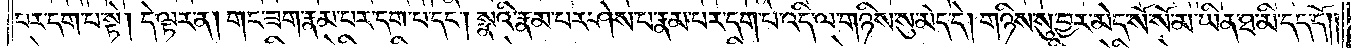པར་དག་པ་སྟེ། དེ་ལྟར་ན། གང་ཟག་རྣམ་པར་དག་པ་དང༌། སྣའི་རྣམ་པར་ཤེས་པ་རྣམ་པར་དག་པ་འདི་ལ་གཉིས་སུ་མེད་དེ། གཉིས་སུ་བྱར་མེད་སོ་སོ་མ་ཡིན་ཐ་མི་དད་དོ༎
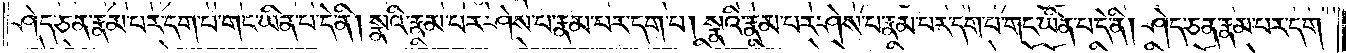ཤེད་ཅན་རྣམ་པར་དག་པ་གང་ཡིན་པ་དེ་ནི། སྣའི་རྣམ་པར་ཤེས་པ་རྣམ་པར་དག་པ། སྣའི་རྣམ་པར་ཤེས་པ་རྣམ་པར་དག་པ་གང་ཡིན་པ་དེ་ནི། ཤེད་ཅན་རྣམ་པར་དག་
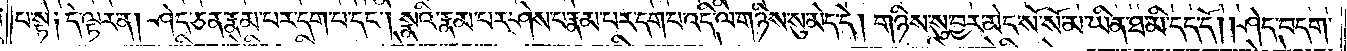པ་སྟེ༑ དེ་ལྟར་ན། ཤེད་ཅན་རྣམ་པར་དག་པ་དང༌། སྣའི་རྣམ་པར་ཤེས་པ་རྣམ་པར་དག་པ་འདི་ལ་གཉིས་སུ་མེད་དེ། གཉིས་སུ་བྱར་མེད་སོ་སོ་མ་ཡིན་ཐ་མི་དད་དོ། །ཤེད་བདག་
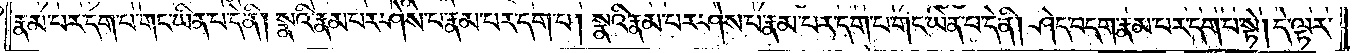རྣམ་པར་དག་པ་གང་ཡིན་པ་དེ་ནི། སྣའི་རྣམ་པར་ཤེས་པ་རྣམ་པར་དག་པ། སྣའི་རྣམ་པར་ཤེས་པ་རྣམ་པར་དག་པ་གང་ཡིན་པ་དེ་ནི། ཤེད་བདག་རྣམ་པར་དག་པ་སྟེ། དེ་ལྟར་
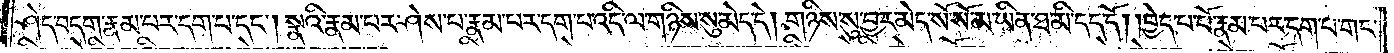ཤེད་བདག་རྣམ་པར་དག་པ་དང༌། སྣའི་རྣམ་པར་ཤེས་པ་རྣམ་པར་དག་པ་འདི་ལ་གཉིས་སུ་མེད་དེ། གཉིས་སུ་བྱར་མེད་སོ་སོ་མ་ཡིན་ཐ་མི་དད་དོ། །བྱེད་པ་པོ་རྣམ་པར་དག་པ་གང་
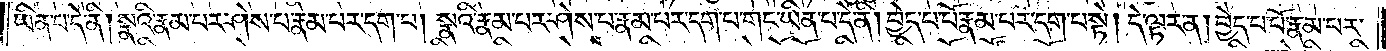ཡིན་པ་དེ་ནི། སྣའི་རྣམ་པར་ཤེས་པ་རྣམ་པར་དག་པ། སྣའི་རྣམ་པར་ཤེས་པ་རྣམ་པར་དག་པ་གང་ཡིན་པ་དེ་ནི། བྱེད་པ་པོ་རྣམ་པར་དག་པ་སྟེ། དེ་ལྟར་ན། བྱེད་པ་པོ་རྣམ་པར་
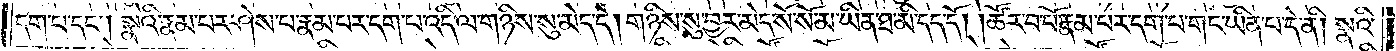དག་པ་དང༌། སྣའི་རྣམ་པར་ཤེས་པ་རྣམ་པར་དག་པ་འདི་ལ་གཉིས་སུ་མེད་དེ། གཉིས་སུ་བྱར་མེད་སོ་སོ་མ་ཡིན་ཐ་མི་དད་དོ། །ཚོར་བ་པོ་རྣམ་པར་དག་པ་གང་ཡིན་པ་དེ་ནི། སྣའི་
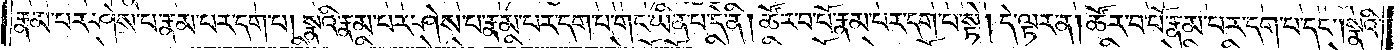རྣམ་པར་ཤེས་པ་རྣམ་པར་དག་པ། སྣའི་རྣམ་པར་ཤེས་པ་རྣམ་པར་དག་པ་གང་ཡིན་པ་དེ་ནི། ཚོར་བ་པོ་རྣམ་པར་དག་པ་སྟེ། དེ་ལྟར་ན། ཚོར་བ་པོ་རྣམ་པར་དག་པ་དང༌། སྣའི་
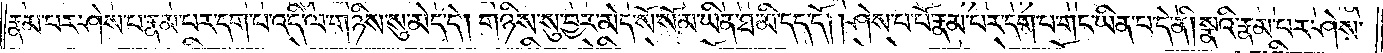རྣམ་པར་ཤེས་པ་རྣམ་པར་དག་པ་འདི་ལ་གཉིས་སུ་མེད་དེ། གཉིས་སུ་བྱར་མེད་སོ་སོ་མ་ཡིན་ཐ་མི་དད་དོ། །ཤེས་པ་པོ་རྣམ་པར་དག་པ་གང་ཡིན་པ་དེ་ནི། སྣའི་རྣམ་པར་ཤེས་
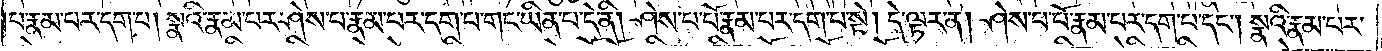པ་རྣམ་པར་དག་པ། སྣའི་རྣམ་པར་ཤེས་པ་རྣམ་པར་དག་པ་གང་ཡིན་པ་དེ་ནི། ཤེས་པ་པོ་རྣམ་པར་དག་པ་སྟེ། དེ་ལྟར་ན། ཤེས་པ་པོ་རྣམ་པར་དག་པ་དང༌། སྣའི་རྣམ་པར་
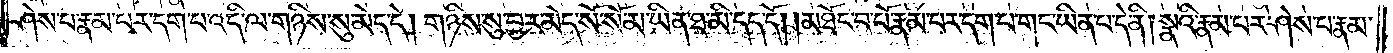ཤེས་པ་རྣམ་པར་དག་པ་འདི་ལ་གཉིས་སུ་མེད་དེ། གཉིས་སུ་བྱར་མེད་སོ་སོ་མ་ཡིན་ཐ་མི་དད་དོ། །མཐོང་བ་པོ་རྣམ་པར་དག་པ་གང་ཡིན་པ་དེ་ནི། སྣའི་རྣམ་པར་ཤེས་པ་རྣམ་
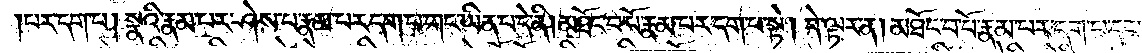པར་དག་པ། སྣའི་རྣམ་པར་ཤེས་པ་རྣམ་པར་དག་པ་གང་ཡིན་པ་དེ་ནི། མཐོང་བ་པོ་རྣམ་པར་དག་པ་སྟེ། དེ་ལྟར་ན། མཐོང་བ་པོ་རྣམ་པར་དག་པ་དང༌།
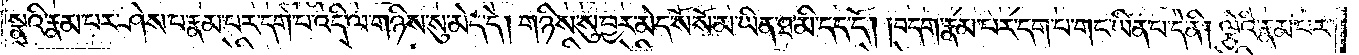སྣའི་རྣམ་པར་ཤེས་པ་རྣམ་པར་དག་པ་འདི་ལ་གཉིས་སུ་མེད་དེ། གཉིས་སུ་བྱར་མེད་སོ་སོ་མ་ཡིན་ཐ་མི་དད་དོ། །བདག་རྣམ་པར་དག་པ་གང་ཡིན་པ་དེ་ནི། ལྕེའི་རྣམ་པར་
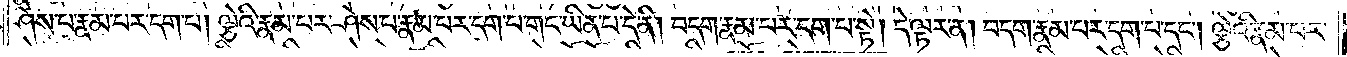ཤེས་པ་རྣམ་པར་དག་པ། ལྕེའི་རྣམ་པར་ཤེས་པ་རྣམ་པར་དག་པ་གང་ཡིན་པ་དེ་ནི། བདག་རྣམ་པར་དག་པ་སྟེ། དེ་ལྟར་ན། བདག་རྣམ་པར་དག་པ་དང༌། ལྕེའི་རྣམ་པར་
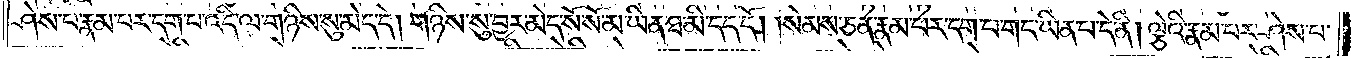ཤེས་པ་རྣམ་པར་དག་པ་འདི་ལ་གཉིས་སུ་མེད་དེ། གཉིས་སུ་བྱར་མེད་སོ་སོ་མ་ཡིན་ཐ་མི་དད་དོ། །སེམས་ཅན་རྣམ་པར་དག་པ་གང་ཡིན་པ་དེ་ནི། ལྕེའི་རྣམ་པར་ཤེས་པ་
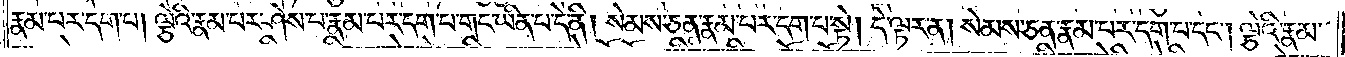རྣམ་པར་དག་པ། ལྕེའི་རྣམ་པར་ཤེས་པ་རྣམ་པར་དག་པ་གང་ཡིན་པ་དེ་ནི། སེམས་ཅན་རྣམ་པར་དག་པ་སྟེ། དེ་ལྟར་ན། སེམས་ཅན་རྣམ་པར་དག་པ་དང༌། ལྕེའི་རྣམ་
